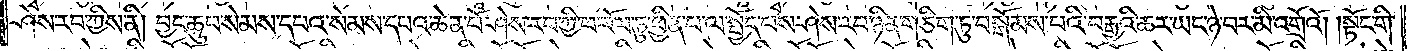ཤེས་རབ་ཀྱིས་ནི། བྱང་ཆུབ་སེམས་དཔའ་སེམས་དཔའ་ཆེན་པོ་ཤེས་རབ་ཀྱི་ཕ་རོལ་ཏུ་ཕྱིན་པ་ལ་སྤྱོད་པས་ཤེས་རབ་ཉིན་གཅིག་ཏུ་བསྒོམས་པའི་བརྒྱའི་ཆར་ཡང་ཉེ་བར་མི་འགྲོའོ། །སྟོང་གི་
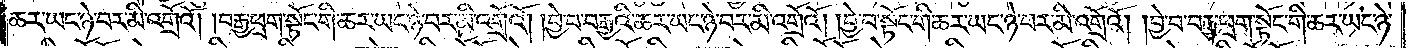ཆར་ཡང་ཉེ་བར་མི་འགྲོའོ། །བརྒྱ་ཕྲག་སྟོང་གི་ཆར་ཡང་ཉེ་བར་མི་འགྲོའོ། །བྱེ་བ་བརྒྱའི་ཆར་ཡང་ཉེ་བར་མི་འགྲོའོ། །བྱེ་བ་སྟོང་གི་ཆར་ཡང་ཉེ་བར་མི་འགྲོའོ། །བྱེ་བ་བརྒྱ་ཕྲག་སྟོང་གི་ཆར་ཡང་ཉེ་
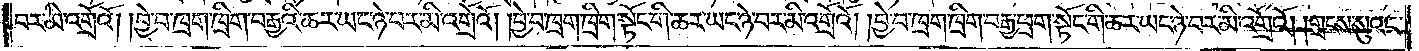བར་མི་འགྲོའོ། །བྱེ་བ་ཁྲག་ཁྲིག་བརྒྱའི་ཆར་ཡང་ཉེ་བར་མི་འགྲོའོ། །བྱེ་བ་ཁྲག་ཁྲིག་སྟོང་གི་ཆར་ཡང་ཉེ་བར་མི་འགྲོའོ། །བྱེ་བ་ཁྲག་ཁྲིག་བརྒྱ་ཕྲག་སྟོང་གི་ཆར་ཡང་ཉེ་བར་མི་འགྲོའོ། །གྲངས་སུའང་
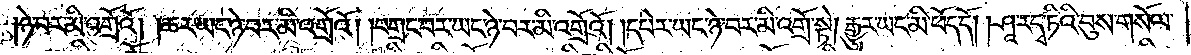ཉེ་བར་མི་འགྲོའོ། །ཆར་ཡང་ཉེ་བར་མི་འགྲོའོ། །བགྲང་བར་ཡང་ཉེ་བར་མི་འགྲོའོ། །དཔེར་ཡང་ཉེ་བར་མི་འགྲོ་སྟེ། རྒྱུར་ཡང་མི་ཕོད་དོ། །ཤཱ་ར་དྭ་ཏིའི་བུས་གསོལ་
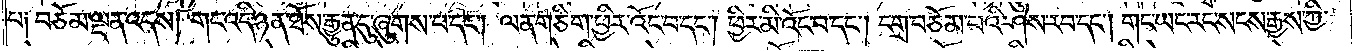པ༑ བཅོམ་ལྡན་འདས། གང་འདི་ཉན་ཐོས་རྒྱུན་དུ་ཞུགས་པ་དང༌། ལན་གཅིག་ཕྱིར་འོང་བ་དང༌། ཕྱིར་མི་འོང་བ་དང༌། དགྲ་བཅོམ་པའི་ཤེས་རབ་དང༌། གང་ཡང་རང་སངས་རྒྱས་ཀྱི་
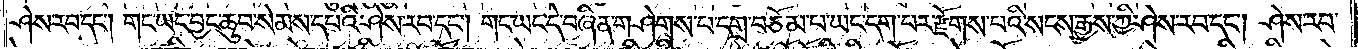ཤེས་རབ་དང༌། གང་ཡང་བྱང་ཆུབ་སེམས་དཔའི་ཤེས་རབ་དང༌། གང་ཡང་དེ་བཞིན་གཤེགས་པ་དགྲ་བཅོམ་པ་ཡང་དག་པར་རྫོགས་པའི་སངས་རྒྱས་ཀྱི་ཤེས་རབ་དང༌། ཤེས་རབ་
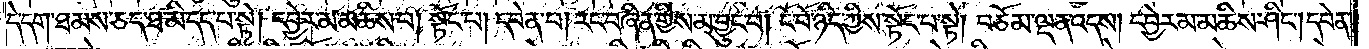དེ་དག་ཐམས་ཅད་ཐ་མི་དད་པ་སྟེ། དབྱེར་མ་མཆིས་པ། སྟོང་པ། དབེན་པ། རང་བཞིན་གྱིས་མ་བྱུང་བ། ངོ་བོ་ཉིད་ཀྱིས་སྟོང་པ་སྟེ། བཅོམ་ལྡན་འདས། དབྱེར་མ་མཆིས་ཤིང༌། དབེན་
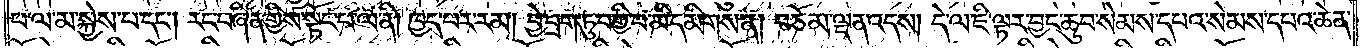པ་ལ་མ་སྐྱེས་པ་དང༌། རང་བཞིན་གྱིས་སྟོང་པ་ལ་ནི། ཁྱད་པར་རམ། བྱེ་བྲག་ཏུ་བགྱི་བ་མི་དམིགས་ན། བཅོམ་ལྡན་འདས། དེ་ལ་ཇི་ལྟར་བྱང་ཆུབ་སེམས་དཔའ་སེམས་དཔའ་ཆེན་
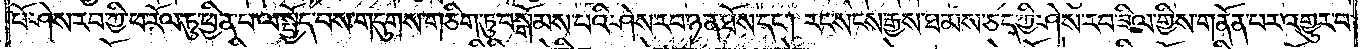པོ་ཤེས་རབ་ཀྱི་ཕ་རོལ་ཏུ་ཕྱིན་པ་ལ་སྤྱོད་པས་གདུགས་གཅིག་ཏུ་བསྒོམས་པའི་ཤེས་རབ་ཉན་ཐོས་དང༌། རང་སངས་རྒྱས་ཐམས་ཅད་ཀྱི་ཤེས་རབ་ཟིལ་གྱིས་གནོན་པར་འགྱུར་བ་
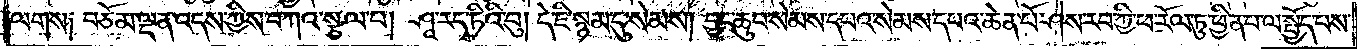ལགས༑ བཅོམ་ལྡན་འདས་ཀྱིས་བཀའ་སྩལ་པ། ཤཱ་རདྭ་ཏིའི་བུ། དེ་ཇི་སྙམ་དུ་སེམས། བྱང་ཆུབ་སེམས་དཔའ་སེམས་དཔའ་ཆེན་པོ་ཤེས་རབ་ཀྱི་ཕ་རོལ་ཏུ་ཕྱིན་པ་ལ་སྤྱོད་པས་
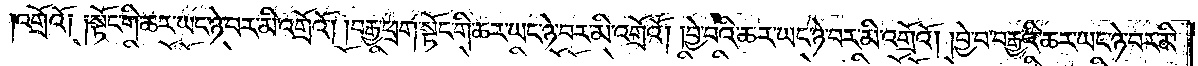འགྲོའོ༑ ༑སྟོང་གི་ཆར་ཡང་ཉེ་བར་མི་འགྲོའོ། །བརྒྱ་ཕྲག་སྟོང་གི་ཆར་ཡང་ཉེ་བར་མི་འགྲོའོ། །བྱེ་བའི་ཆར་ཡང་ཉེ་བར་མི་འགྲོའོ། །བྱེ་བ་བརྒྱའི་ཆར་ཡང་ཉེ་བར་མི་
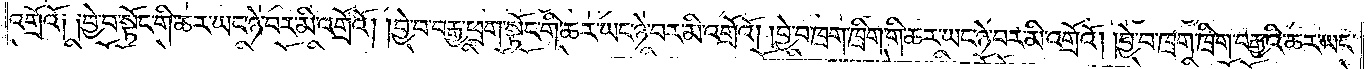འགྲོའོ༑ ༑བྱེ་བ་སྟོང་གི་ཆར་ཡང་ཉེ་བར་མི་འགྲོའོ། །བྱེ་བ་བརྒྱ་ཕྲག་སྟོང་གི་ཆར་ཡང་ཉེ་བར་མི་འགྲོའོ། །བྱེ་བ་ཁྲག་ཁྲིག་གི་ཆར་ཡང་ཉེ་བར་མི་འགྲོའོ། །བྱེ་བ་ཁྲག་ཁྲིག་བརྒྱའི་ཆར་ཡང་
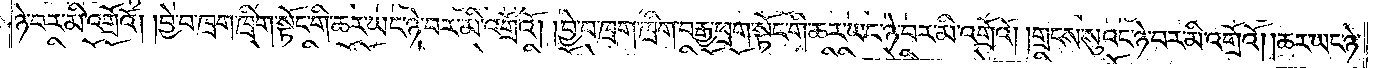ཉེ་བར་མི་འགྲོའོ། །བྱེ་བ་ཁྲག་ཁྲིག་སྟོང་གི་ཆར་ཡང་ཉེ་བར་མི་འགྲོའོ། །བྱེ་བ་ཁྲག་ཁྲིག་བརྒྱ་ཕྲག་སྟོང་གི་ཆར་ཡང་ཉེ་བར་མི་འགྲོའོ། །གྲངས་སུའང་ཉེ་བར་མི་འགྲོའོ། །ཆར་ཡང་ཉེ་
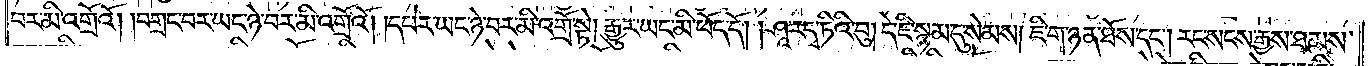བར་མི་འགྲོའོ། །བགྲང་བར་ཡང་ཉེ་བར་མི་འགྲོའོ། །དཔེར་ཡང་ཉེ་བར་མི་འགྲོ་སྟེ། རྒྱུར་ཡང་མི་ཕོད་དོ། །ཤཱ་ར་དྭ་ཏིའི་བུ། དེ་ཇི་སྙམ་དུ་སེམས། །ཇི་ག་ཉན་ཐོས་དང༌། རང་སངས་རྒྱས་ཐམས་
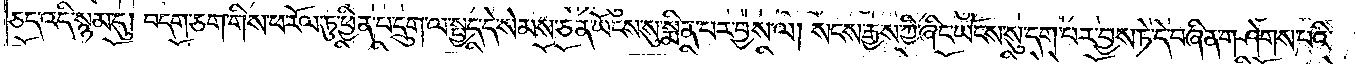ཅད་འདི་སྙམ་དུ། བདག་ཅག་གིས་ཕ་རོལ་ཏུ་ཕྱིན་པ་དྲུག་ལ་སྤྱད་དེ་སེམས་ཅན་ཡོངས་སུ་སྨིན་པར་བྱས་ལ། སངས་རྒྱས་ཀྱི་ཞིང་ཡོངས་སུ་དག་པར་བྱས་ཏེ་དེ་བཞིན་གཤེགས་པའི་
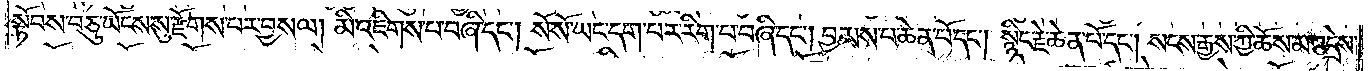སྟོབས་བཅུ་ཡོངས་སུ་རྫོགས་པར་བྱས་ལ། མི་འཇིགས་པ་བཞི་དང༌། སོ་སོ་ཡང་དག་པར་རིག་པ་བཞི་དང༌། བྱམས་པ་ཆེན་པོ་དང༌། སྙིང་རྗེ་ཆེན་པོ་དང༌། སངས་རྒྱས་ཀྱི་ཆོས་མ་འདྲེས་
